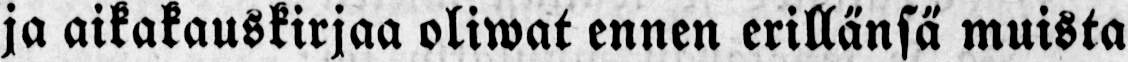ja aikakauskirjaa oliwat ennen erillä nsä muista
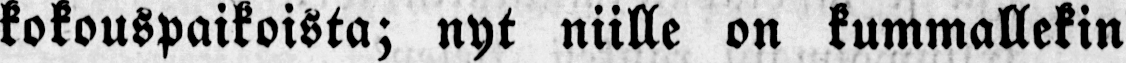kokouspaikoista; nyt niille on kummallekin
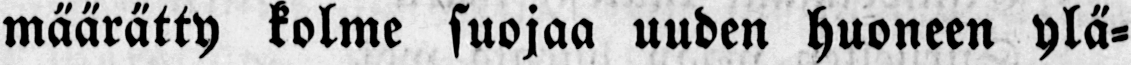määrätty kolme suojaa uuden huoneen ylä-
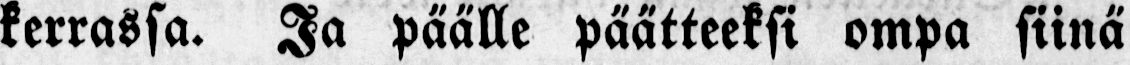kerrassa. Ja päälle päätteeksi ompa siinä
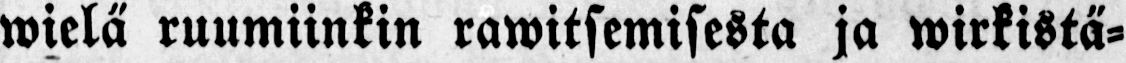wielä ruumiinkin rawitsemisesta ja wirkistä-
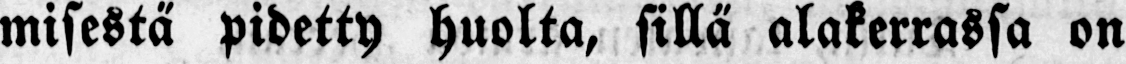misestä pidetty huolta, sillä alakerrassa on
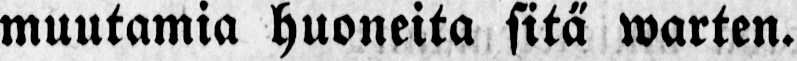muutamia huoneita sitä warten.
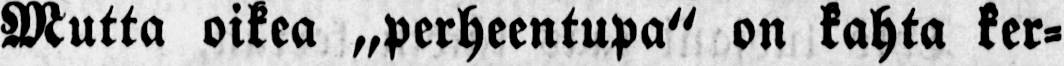Mutta oikea „perheentupaˮ on kahta ker-
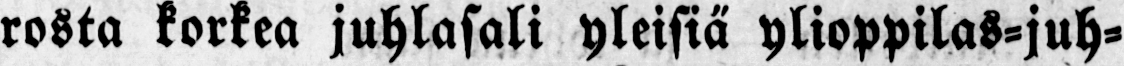rosta korkea juhlasali yleisiä ylioppilas-juh-
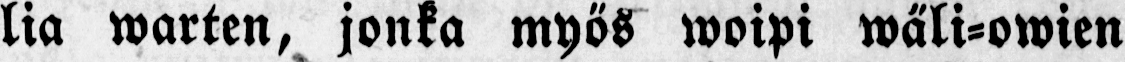lia warten, jonka myő s woipi wäli-owien
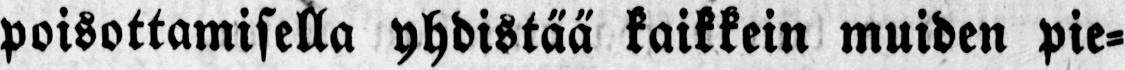poisottamisella yhdistää kaikkein muiden pie-
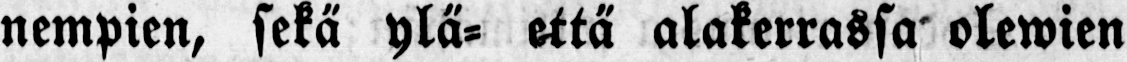nempien, sekä ylä- että alakerrassa olewien
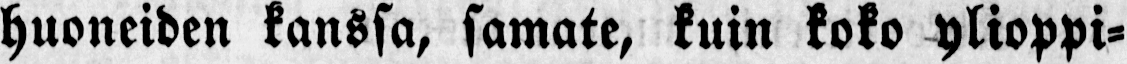huoneiden kanssa, samate, kuin koko ylioppi-
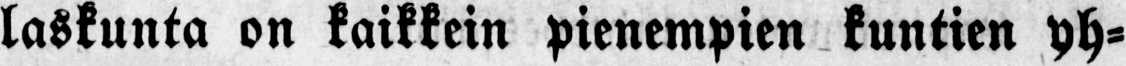laskunta on kaikkein pienempien kuntien yh-
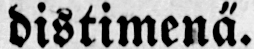distimenä.
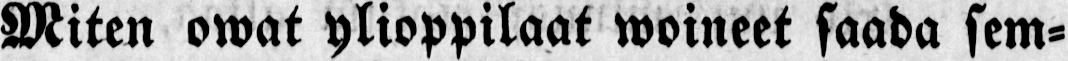Miten owat ylioppilaat woineet saada sem-
